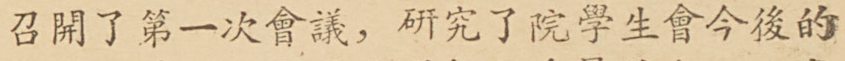召開了第一次會議，研究了院學生會今後的
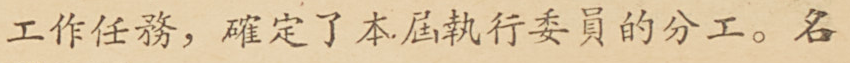工作任務，確定了本屆執行委員的分工。名
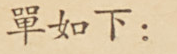單如下：
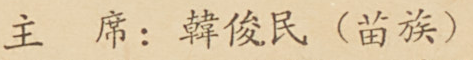主 席：韓俊民（苗族）
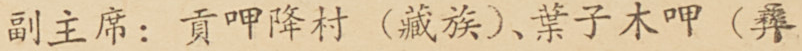副主席：貢呷降村（藏族）、葉子木呷（彝
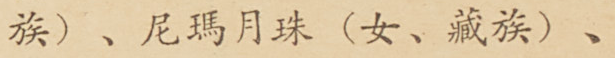族）、尼瑪月珠（女、藏族）、
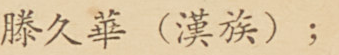滕久華（漢族）；
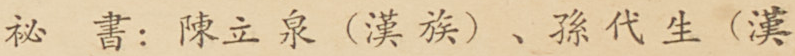祕 書：陳立泉（漢族）、孫代生（漢
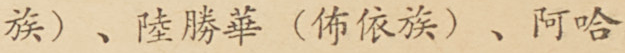族）、陸勝華（布依族）、阿哈
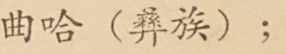曲哈（彝族）；
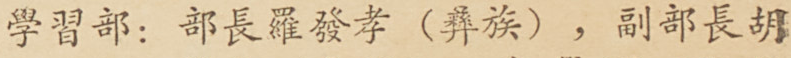學習部：部長羅發孝（彝族），副部長胡
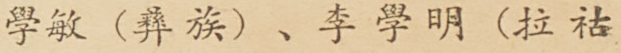學敏（彝族）、李學明（拉祜
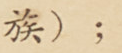族）；
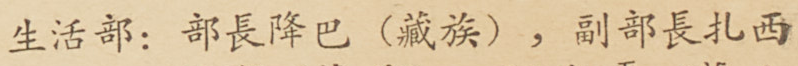生活部：部長降巴（藏族），副部長扎西
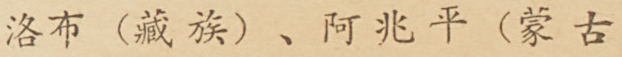洛布（藏族）、阿兆平（蒙古
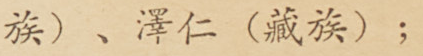族）、澤仁（藏族）；
